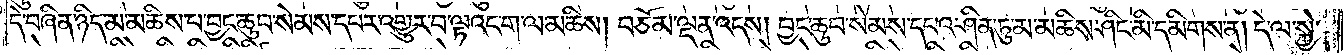དེ་བཞིན་ཉིད་མ་མཆིས་པ་བྱང་ཆུབ་སེམས་དཔར་འགྱུར་བ་ལྟའང་ག་ལ་མཆིས། བཅོམ་ལྡན་འདས། བྱང་ཆུབ་སེམས་དཔའ་ཤིན་ཏུ་མ་མཆིས་ཤིང་མི་དམིགས་ན། དེ་ལ་སྐྱེ་
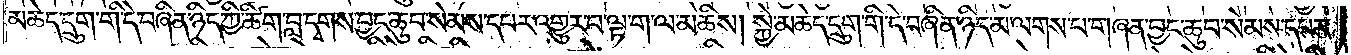མཆེད་དྲུག་གི་དེ་བཞིན་ཉིད་ཀྱི་ཚིག་བླ་དྭགས་བྱང་ཆུབ་སེམས་དཔར་འགྱུར་བ་ལྟ་ག་ལ་མཆིས། སྐྱེ་མཆེད་དྲུག་གི་དེ་བཞིན་ཉིད་མ་ལགས་པ་གཞན་བྱང་ཆུབ་སེམས་དཔར་
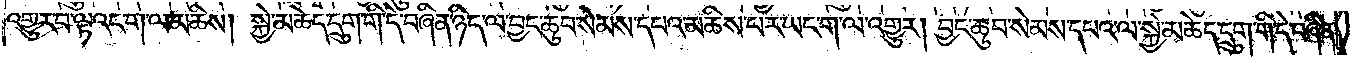འགྱུར་བ་ལྟའང་ག་ལ་མཆིས། སྐྱེ་མཆེད་དྲུག་གི་དེ་བཞིན་ཉིད་ལ་བྱང་ཆུབ་སེམས་དཔའ་མཆིས་པར་ཡང་ག་ལ་འགྱུར། བྱང་ཆུབ་སེམས་དཔའ་ལ་སྐྱེ་མཆེད་དྲུག་གི་དེ་བཞིན་
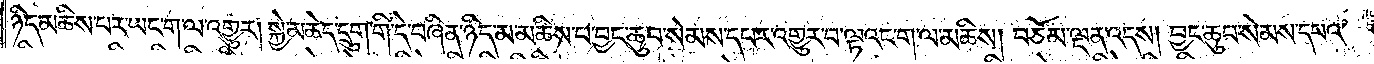ཉིད་མཆིས་པར་ཡང་ག་ལ་འགྱུར། སྐྱེ་མཆེད་དྲུག་གི་དེ་བཞིན་ཉིད་མ་མཆིས་པ་བྱང་ཆུབ་སེམས་དཔར་འགྱུར་བ་ལྟའང་ག་ལ་མཆིས། བཅོམ་ལྡན་འདས། བྱང་ཆུབ་སེམས་དཔའ་
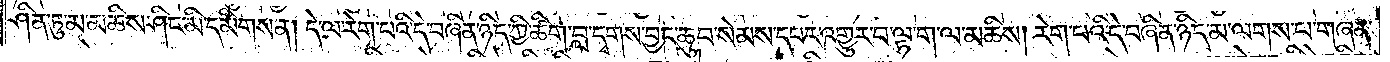ཤིན་ཏུ་མ་མཆིས་ཤིང་མི་དམིགས་ན། དེ་ལ་རེག་པའི་དེ་བཞིན་ཉིད་ཀྱི་ཚིག་བླ་དྭགས་བྱང་ཆུབ་སེམས་དཔར་འགྱུར་བ་ལྟ་ག་ལ་མཆིས། རེག་པའི་དེ་བཞིན་ཉིད་མ་ལགས་པ་གཞན་
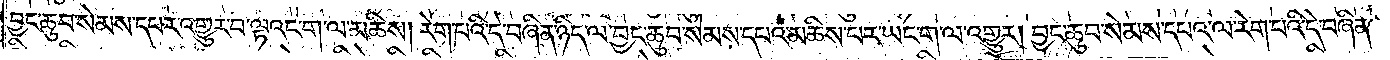བྱང་ཆུབ་སེམས་དཔར་འགྱུར་བ་ལྟའང་ག་ལ་མཆིས། རེག་པའི་དེ་བཞིན་ཉིད་ལ་བྱང་ཆུབ་སེམས་དཔའ་མཆིས་པར་ཡང་ག་ལ་འགྱུར། བྱང་ཆུབ་སེམས་དཔའ་ལ་རེག་པའི་དེ་བཞིན་
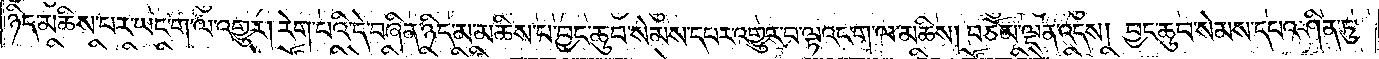ཉིད་མཆིས་པར་ཡང་ག་ལ་འགྱུར། རེག་པའི་དེ་བཞིན་ཉིད་མ་མཆིས་པ་བྱང་ཆུབ་སེམས་དཔར་འགྱུར་བ་ལྟའང་ག་ལ་མཆིས། བཅོམ་ལྡན་འདས། བྱང་ཆུབ་སེམས་དཔའ་ཤིན་ཏུ་
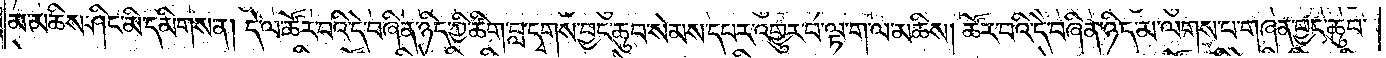མ་མཆིས་ཤིང་མི་དམིགས་ན། དེ་ལ་ཚོར་བའི་དེ་བཞིན་ཉིད་ཀྱི་ཚིག་བླ་དྭགས་བྱང་ཆུབ་སེམས་དཔར་འགྱུར་བ་ལྟ་ག་ལ་མཆིས། ཚོར་བའི་དེ་བཞིན་ཉིད་མ་ལགས་པ་གཞན་བྱང་ཆུབ་
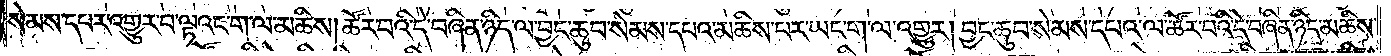སེམས་དཔར་འགྱུར་བ་ལྟའང་ག་ལ་མཆིས། ཚོར་བའི་དེ་བཞིན་ཉིད་ལ་བྱང་ཆུབ་སེམས་དཔའ་མཆིས་པར་ཡང་ག་ལ་འགྱུར། བྱང་ཆུབ་སེམས་དཔའ་ལ་ཚོར་བའི་དེ་བཞིན་ཉིད་མཆིས་
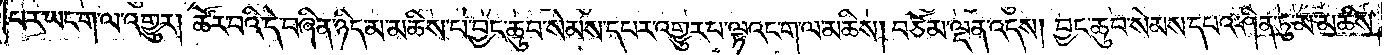པར་ཡང་ག་ལ་འགྱུར། ཚོར་བའི་དེ་བཞིན་ཉིད་མ་མཆིས་པ་བྱང་ཆུབ་སེམས་དཔར་འགྱུར་པ་ལྟའང་ག་ལ་མཆིས། བཅོམ་ལྡན་འདས། བྱང་ཆུབ་སེམས་དཔའ་ཤིན་ཏུ་མ་མཆིས་
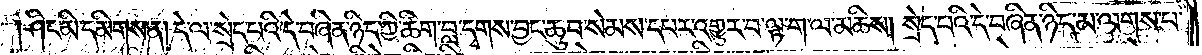ཤིང་མི་དམིགས་ན། དེ་ལ་སྲེད་པའི་དེ་བཞིན་ཉིད་ཀྱི་ཚིག་བླ་དྭགས་བྱང་ཆུབ་སེམས་དཔར་འགྱུར་བ་ལྟ་ག་ལ་མཆིས། སྲེད་པའི་དེ་བཞིན་ཉིད་མ་ལགས་པ་
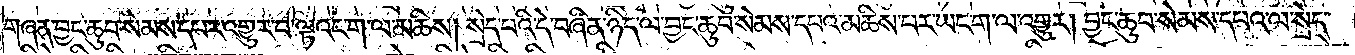གཞན་བྱང་ཆུབ་སེམས་དཔར་འགྱུར་བ་ལྟའང་ག་ལ་མཆིས། སྲེད་པའི་དེ་བཞིན་ཉིད་ལ་བྱང་ཆུབ་སེམས་དཔའ་མཆིས་པར་ཡང་ག་ལ་འགྱུར། བྱང་ཆུབ་སེམས་དཔའ་ལ་སྲེད་
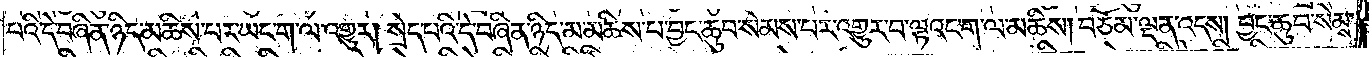པའི་དེ་བཞིན་ཉིད་མཆིས་པར་ཡང་ག་ལ་འགྱུར། སྲེད་པའི་དེ་བཞིན་ཉིད་མ་མཆིས་པ་བྱང་ཆུབ་སེམས་པར་འགྱུར་བ་ལྟའང་ག་ལ་མཆིས། བཅོམ་ལྡན་འདས། བྱང་ཆུབ་སེམས་
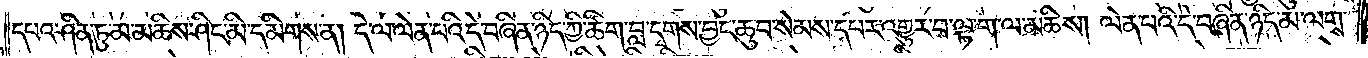དཔའ་ཤིན་ཏུ་མ་མཆིས་ཤིང་མི་དམིགས་ན། དེ་ལ་ལེན་པའི་དེ་བཞིན་ཉིད་ཀྱི་ཚིག་བླ་དྭགས་བྱང་ཆུབ་སེམས་དཔར་འགྱུར་བ་ལྟ་ག་ལ་མཆིས། ལེན་པའི་དེ་བཞིན་ཉིད་མ་ལགས་
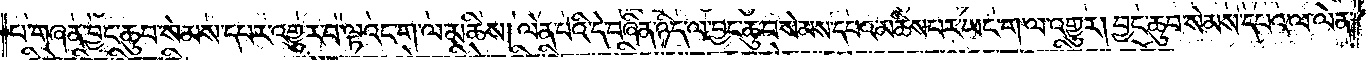པ་གཞན་བྱང་ཆུབ་སེམས་དཔར་འགྱུར་བ་ལྟའང་ག་ལ་མཆིས། ལེན་པའི་དེ་བཞིན་ཉིད་ལ་བྱང་ཆུབ་སེམས་དཔའ་མཆིས་པར་ཡང་ག་ལ་འགྱུར། བྱང་ཆུབ་སེམས་དཔའ་ལ་ལེན་
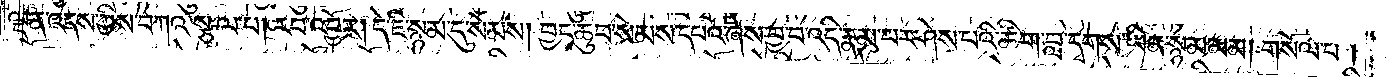ལྡན་འདས་ཀྱིས་བཀའ་སྩལ་པ། རབ་འབྱོར། དེ་ཇི་སྙམ་དུ་སེམས། བྱང་ཆུབ་སེམས་དཔའ་ཞེས་བྱ་བ་འདི་རྣམ་པར་ཤེས་པའི་ཚིག་བླ་དྭགས་ཡིན་སྙམ་མམ། གསོལ་པ།
